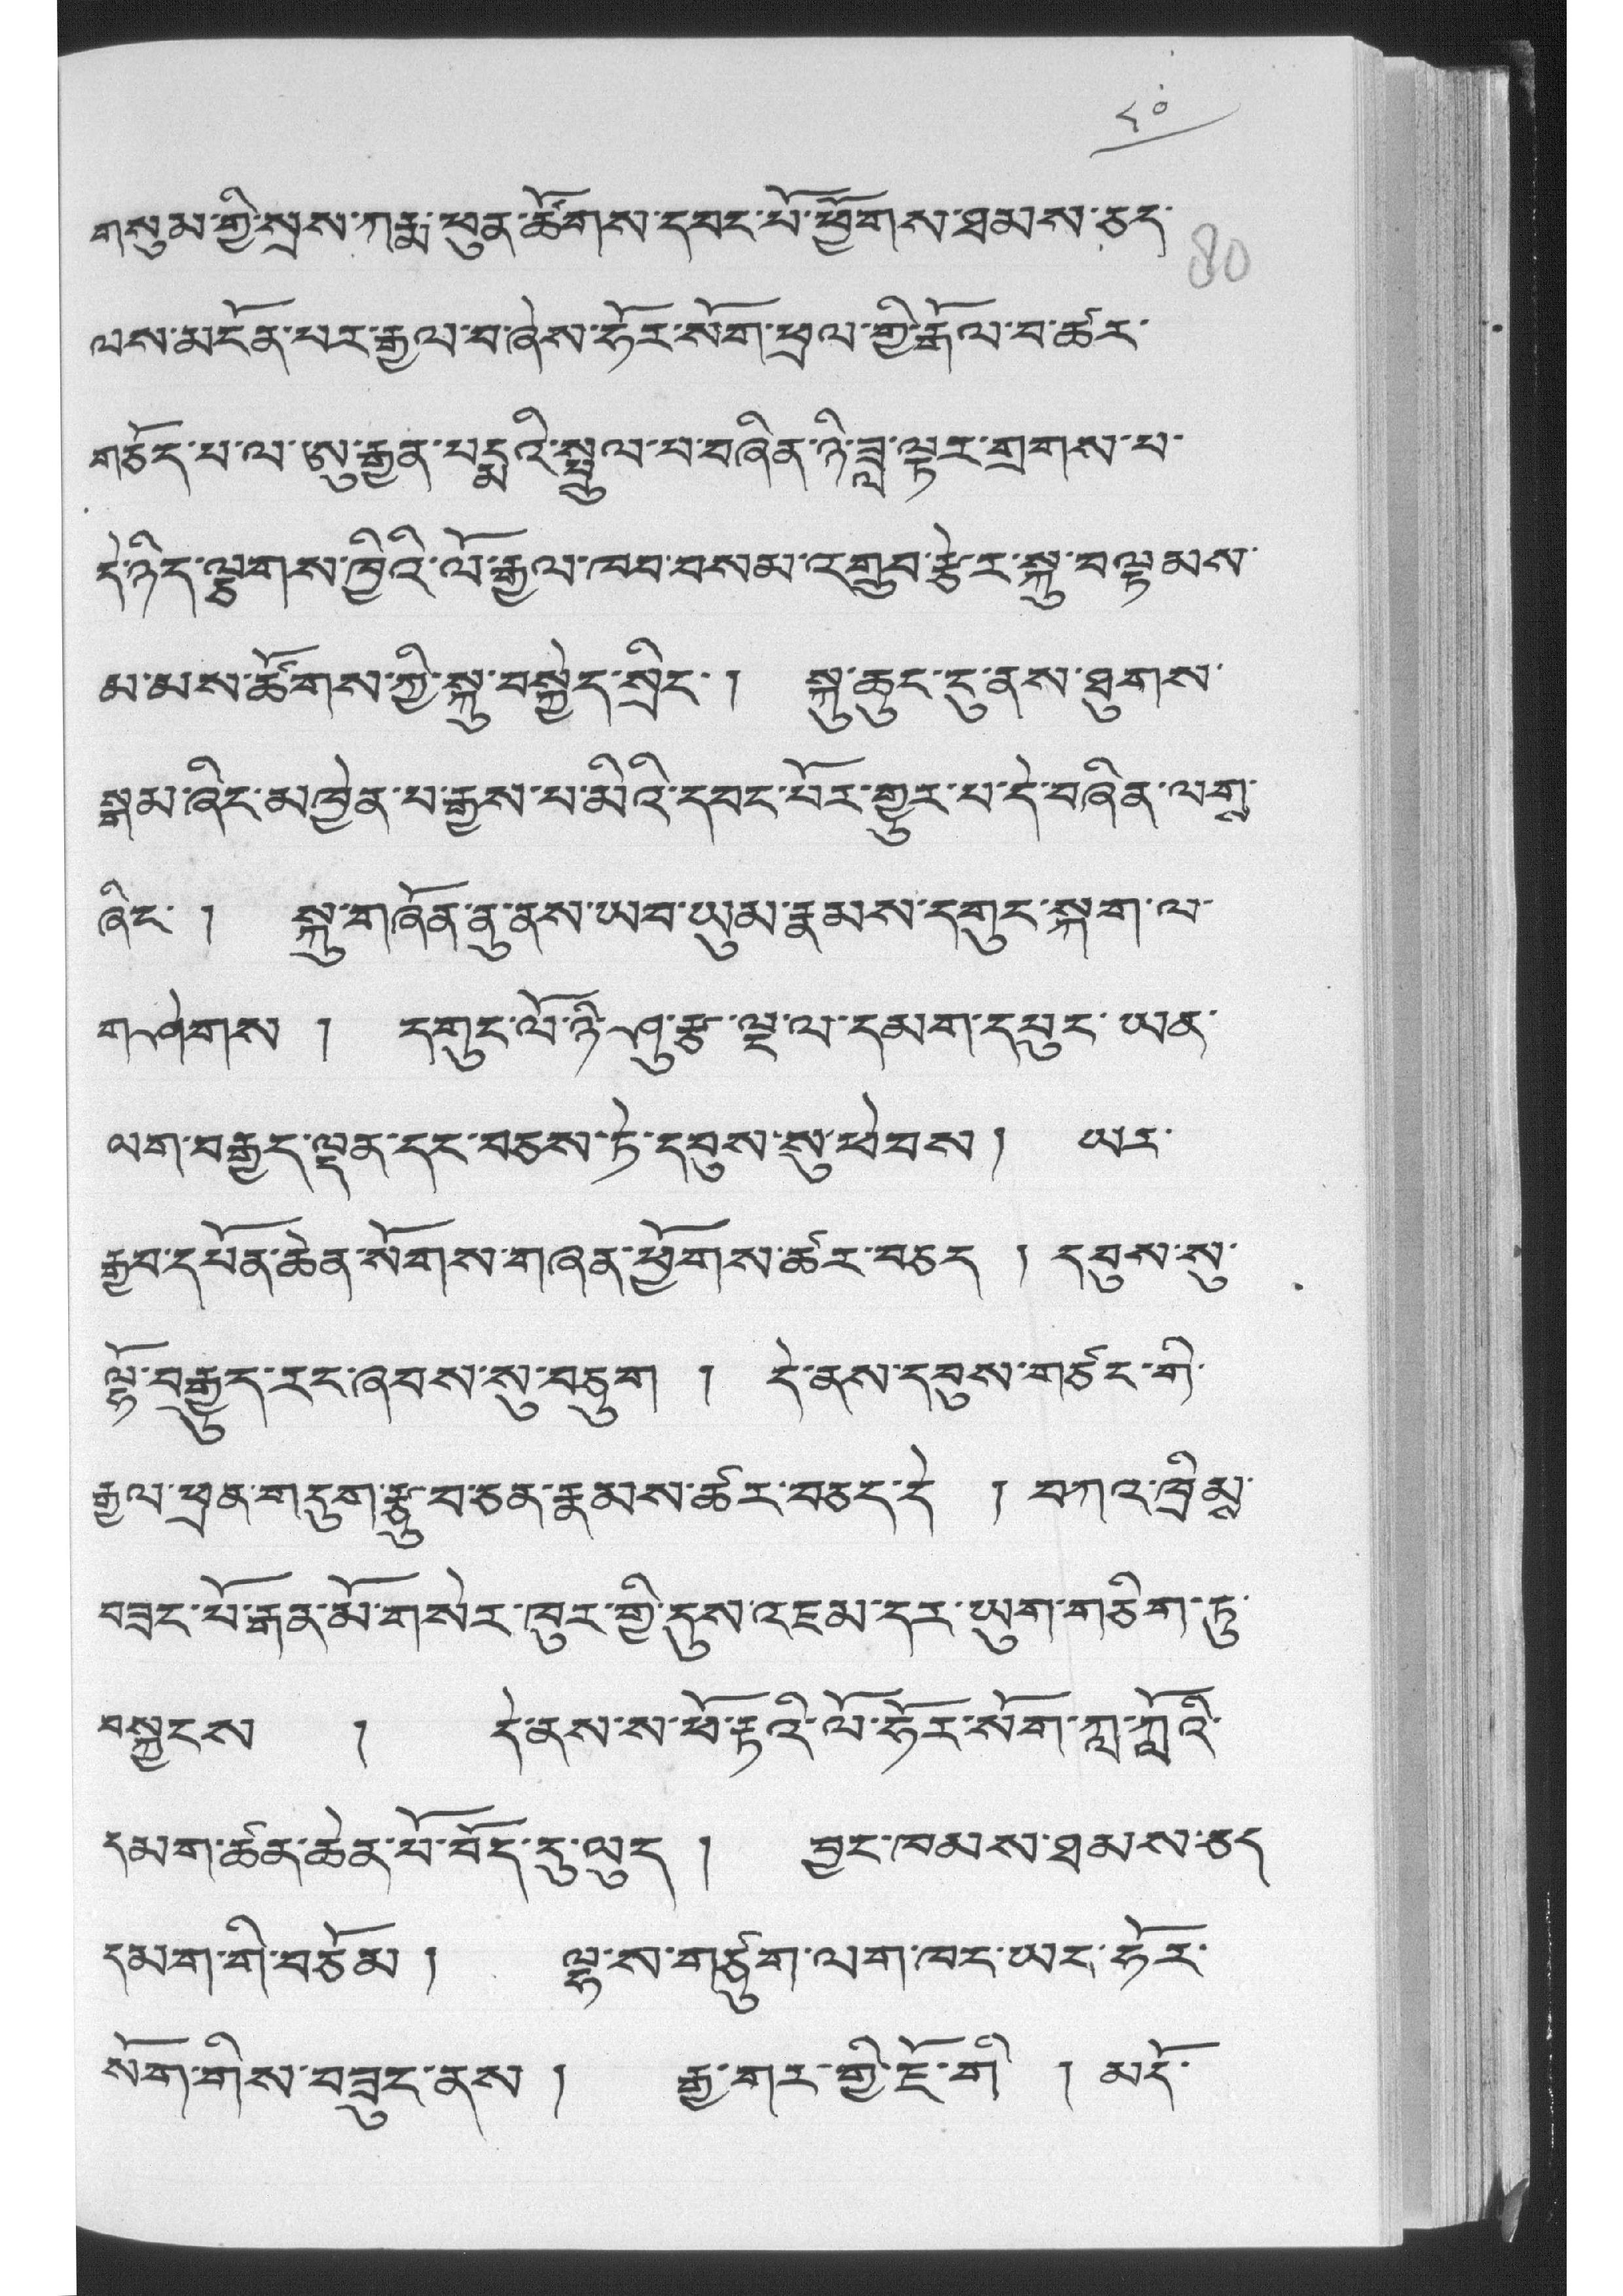༨༠
གསུམ་གྱི་སྲས་ཀརྨ་ཕུན་ཚོགས་དབང་པོ་ཕྱོགས་ཐམས་ཅད་
ལས་མངོན་པར་རྒྱལ་བ་ཞེས་ཧོར་སོག་ཕྲལ་གྱི་རྒོལ་བ་ཚར་
གཅོད་པ་ལ་ཨུ་རྒྱན་བདྨའི་སྤྲུལ་བ་བཞིན་ཉི་ཟླ་ལྟར་གྲགས་པ་
དེ་ཉིད་ལྕགས་ཁྱིའི་ལོ་རྒྱལ་ཁབ་བསམ་འགྲུབ་རྩེར་སྐུ་བལྟམས་
མ་མས་ཚོགས་ཀྱི་སྐུ་བསྐྱེད་སྲིང་། སྐུ་ཆུང་དུ་ནས་ཐུགས་
སྒམ་ཞིང་མཁྱེན་པ་རྒྱས་པ་མིའི་དབང་པོར་གྱུར་པ་དེ་བཞིན་ལགས་
ཞིང་། སྐུ་གཞོན་ནུ་ནས་ཡབ་ཡུམ་རྣམས་དགུང་སྐག་ལ་
གཤེགས། དགུང་ལོ་ཉི་ཤུ་རྩ་ལྔ་ལ་དམག་དཔུང་ཡན་
ལག་བརྒྱད་ལྡན་དང་བཅས་ཏེ་དབུས་སུ་ཕེབས། ཡར་
རྒྱབ་དཔོན་ཆེན་སོགས་གཞན་ཕྱོགས་ཚར་བཅད ། དབུས་སུ་
ལྷོ་བརྒྱུད་རང་ཞབས་སུ་བཅུག ། དེ་ནས་དབུས་གཙང་གི་
རྒྱལ་ཕྲན་གདུག་རྩུ་བ་ཅན་རྣམས་ཚར་བཅད་དེ ། བཀའ་ཁྲིམས་
བཟང་པོ་རྒན་མོ་གསེར་ཁུར་གྱི་དུས་འཇམ་དར་ཡུག་གཅིག་ཏུ་
བསྐྱངས ། དེ་ནས་ས་ཕོ་རྟའི་ལོ་ཧོར་སོག་ཀླ་ཀློའི་
དམག་ཚན་ཆེན་པོ་བོད་དུ་ལུད། བྱང་ཁམས་ཐམས་ཅད་
དམག་གི་བཅོམ། ལྷ་ས་གཙུག་ལག་ཁར་ཡང་ཧོར་
སོག་གིས་བཟུང་ནས། རྒྱ་གར་གྱི་ཇོ་གི ། མདོ་
